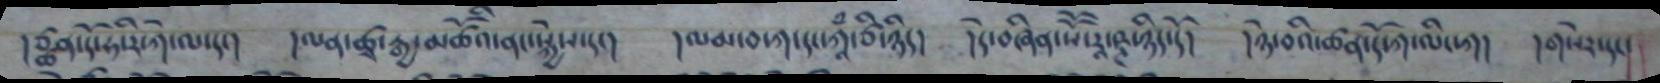།ཙྪན་དོ་ཧ་རི་ཀེ་ལ་དང། །ལན་ཚྭ་རྒྱ་མཚོའི་ནང་སྐྱེས་དང། །ལམ་བ་ཀ་དང་ཀཱཾ་ཙི་ཉིད། །དེ་བཞིན་སཽ་རཱ་ཥྚ་ཉིད་དོ། །ཉེ་བའི་ཚན་དོ་ཀ་ལིང་ཀ། །གསེར་དང་
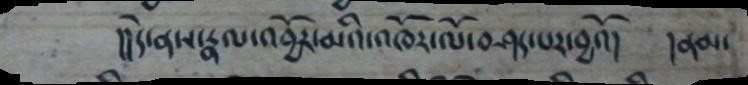།།དེ་ནས་རྣལ་འབྱོར་མའི་འཁོར་ལོ་བཤད་པར་བྱའོ། །ནམ་
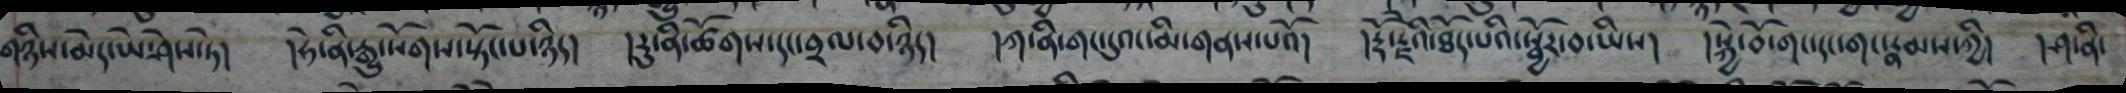གཉིས་མེད་ཡེ་ཤེས་ཏེ། །ཧེ་ནི་རྒྱུ་སོགས་སྟོང་པ་ཉིད། །རུ་ནི་ཚོགས་དང་བྲལ་བ་ཉིད། །ཀ་ནི་གང་དུའང་མི་གནས་པའོ། །རྡོ་རྗེའི་ཐོད་པའི་སྦྱོར་བ་ཡིས། །སྐྱེ་བོ་གང་དང་གང་རྣམས་ཀྱི། །ཤ་ནི་
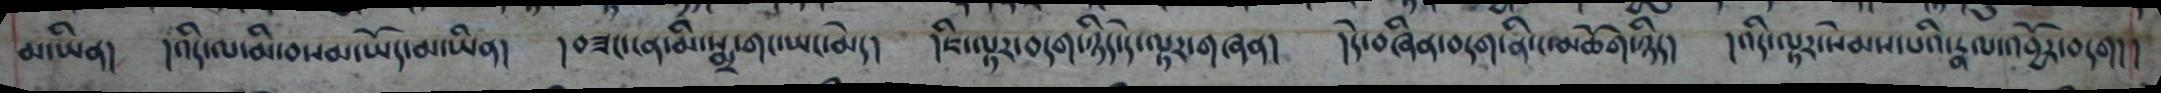མ་ཡིན། །འདི་ལ་མི་བསམ་ཡོད་མ་ཡིན། །བཟང་ངན་མི་སྨྲ་གང་ཡང་མེད། །ཇི་ལྟར་བདག་ཉིད་དེ་ལྟར་གཞན། །དེ་བཞིན་བདག་ནི་ང་མཆོག་ཉིད། །འདི་ལྟར་སེམས་པའི་རྣལ་འབྱོར་བདག། །
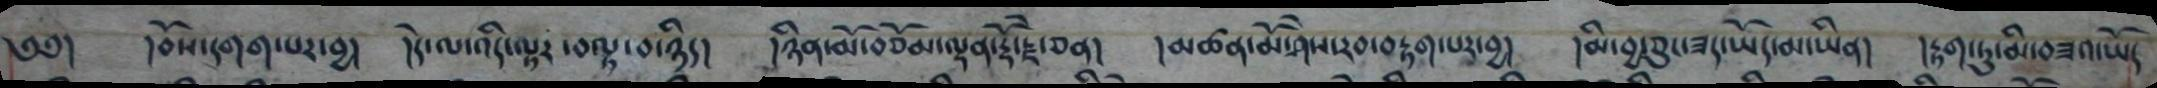༄༅། །བོས་དགག་པར་བྱ། །དེ་ལ་འདི་ལྟར་བལྟ་བ་ཉིད། །ཉིན་མོ་བཅོམ་ལྡན་རྡོ་རྗེ་ཅན། །མཚན་མོ་ཤེས་རབ་བརྟག་པར་བྱ། །མི་བྱ་ཅུང་ཟད་ཡོད་མ་ཡིན། །རྟག་ཏུ་མི་བཟའ་ཡོད
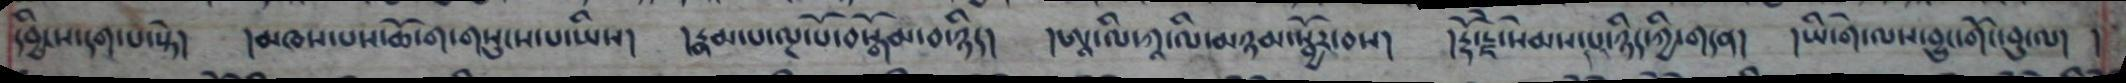དབྱིངས་དག་པ་སྟེ། །མཁས་པས་ཆོ་ག་གསུངས་པ་ཡིས། །རྣམ་པ་ལྔ་པོ་བསྒོམ་བ་ཉིད། །ཨཱ་ལི་ཀཱ་ལི་མཉམ་སྦྱོར་བས། །རྡོ་རྗེ་སེམས་པ་ཉིད་ཀྱི་གདན། །ཡི་གེ་ལས་བྱུང་གོང་བུ་ལ། །
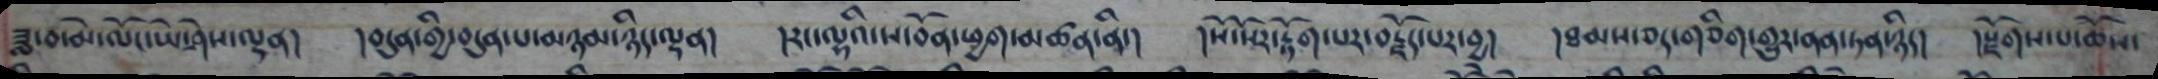ཟླ་བ་མེ་ལོང་ཡེ་ཤེས་ལྡན། །བདུན་གྱི་བདུན་པ་མཉམ་ཉིད་ལྡན། །རང་ལྷའི་ས་བོན་ཕྱག་མཚན་ནི་། །སོ་སོར་རྟོག་པར་བརྗོད་པར་བྱ། །ཐམས་ཅད་གཅིག་གྱུར་ནན་ཏན་ཉིད། །སྫོགས་པ་ཆོས་
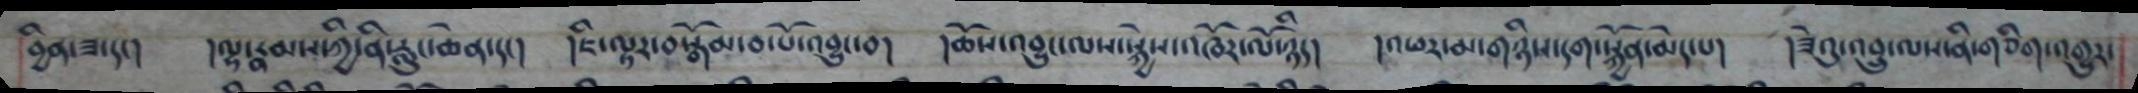བྱིན་ཟ་དང། །ལྷ་རྣམས་ཀྱི་ནི་རླུང་ཆེན་དང། །ཇི་ལྟར་བསྒོམ་བ་པོ་འབྱུང་བ། །ཆོས་འབྱུང་ལས་སྐྱེས་འཁོར་ལོ་ཉིད། །འཕར་མ་གཉིས་དག་སྐྱོན་མེད་པ།།ཟེའུ་འབྲུ་ལས་ནི་གཅིག་འགྱུར་
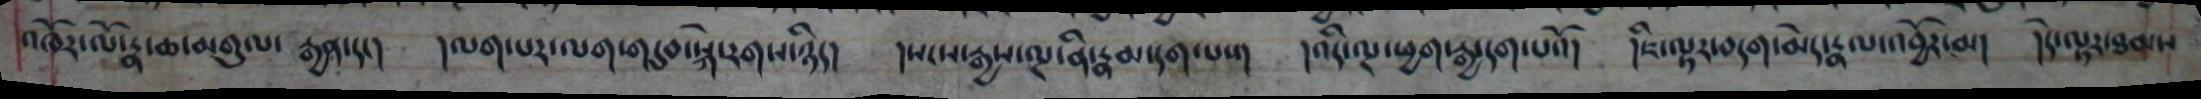འཁོར་ལོ་རྣ་ཆ་མགུལ་ རྒྱན་དང། །ལག་པར་ལག་གདུབ་སྐེ་རགས་ཉིད། །སངས་རྒྱས་ལྔ་ནི་རྣམ་དག་པས། །འདི་ལྔ་ཕྱག་རྒྱ་དག་པའོ། །ཇི་ལྟར་བདག་མེད་རྣལ་འབྱོར་མ། །དེ་ལྟར་ཐམས
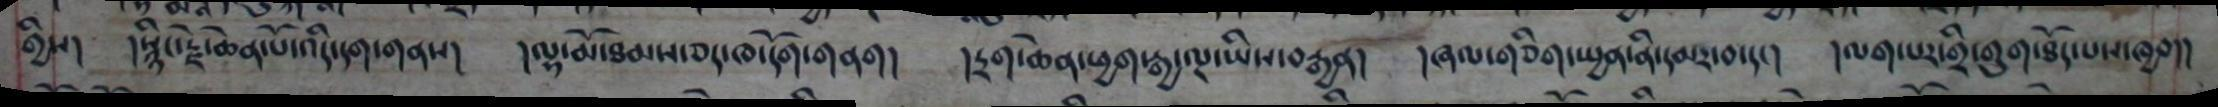གྱིས། །སྙིང་རྗེ་ཆེན་པོ་འདི་དག་གནས། །ལྷ་མོ་ཐམས་ཅད་ཁ་དོག་གནག། །དྲག་ཆེན་ཕྱག་རྒྱ་ལྔ་ཡིས་བརྒྱན། །ཞལ་གཅིག་སྤྱན་ནི་དམར་བ་དང། །ལག་པར་གྲི་གུག་ཐོད་པས་ཁྱབ།།
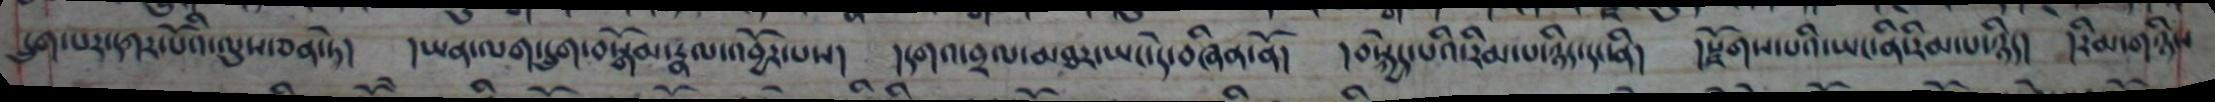དྲུག་པར་དཀར་པོའི་ལུས་ཅན་ཏེ། །ཡན་ལག་དྲུག་བསྒོམ་རྣལ་འབྱོར་པས། །དགའ་བྲལ་མཐར་ཡང་དེ་བཞིན་ནོ།།བསྐྱེད་པའི་རིམ་པ་ཉིད་དང་ནི། །སྫོགས་པའི་ཡང་ནི་རིམ་པ་ཉིད། །རིམ་གཉིས
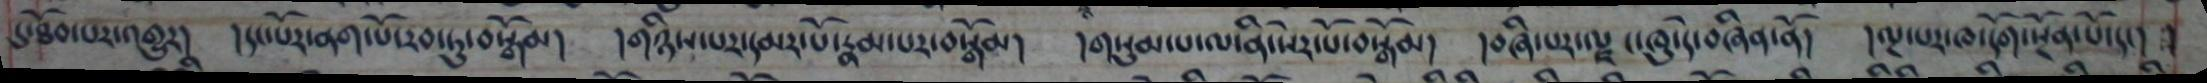དུ་ཐོབ་པར་འགྱུར། །དང་པོར་ནག་པོ་རབ་ཏུ་བསྒོམ། །གཉིས་པར་དམར་པོ་རྣམ་པར་བསྒོམ། །གསུམ་པ་ལ་ནི་སེར་པོ་བསྒོམ། །བཞི་པར་ལྗང་ཁུ་དེ་བཞིན་ནོ། ལྔ་པར་ཁ་དོག་སྔོན་པོ་དང། །
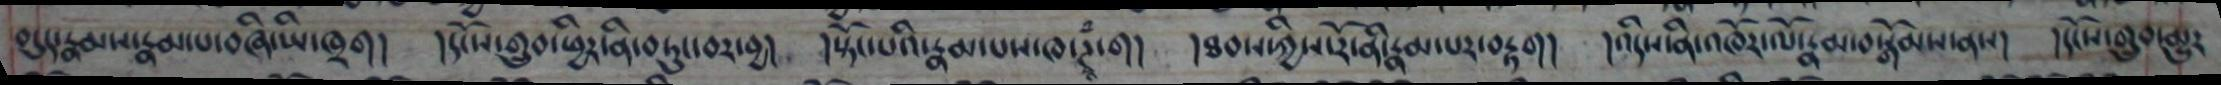བདུད་རྣམས་རྣམ་པ་བཞི་ཡི་ཁྲག། །དངོས་གྲུབ་ཕྱིར་ནི་བཏུལ་བར་བྱ། །སྟོང་པའི་རྣམ་པས་ཁ་ཊྭཱཾ་ག། །ཐབས་ཀྱིས་རོ་ནི་རྣམ་པར་བརྟག། །འདིས་ནི་འཁོར་ལོ་རྣམ་བསྒོམས་ནས། །དངོས་གྲུབ་མྱུར
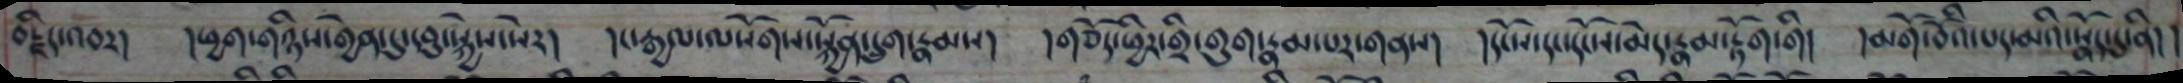བརྗིད་འབར། །ཕྱག་གཉིས་གྱེན་དུ་དབུ་སྐྱེས་སེར། །ང་རྒྱལ་ལསོགས་སྐྱོན་དྲུག་རྣམས། །གཅོད་ཕྱིར་གྲི་གུག་རྣམ་པར་གནས། །དངོས་དང་དངོས་མེད་རྣམ་རྟོག་གི། །མགོ་བོའི་པད་མའི་སྣོད་དུ་ནི། །
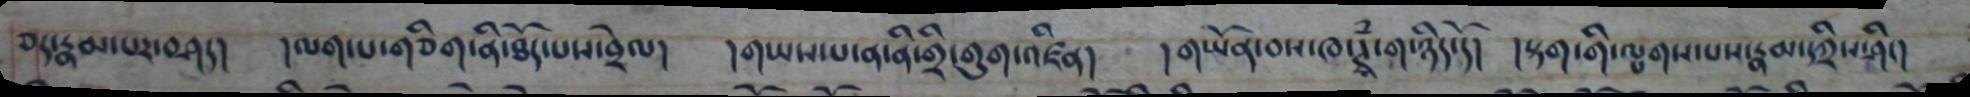ཅད་རྣམ་པར་བཤད། །ལག་པ་གཅིག་ནི་ཐོད་པས་བྲེལ། །གཡས་པ་ན་ནི་གྲི་གུག་འཛིན། །གཡོན་བས་ཁ་ཊྭཱཾ་ག་ཉིད་དོ། །སྟག་གི་ལྤགས་པས་རྣམ་དཀྲིས་ཤིང།
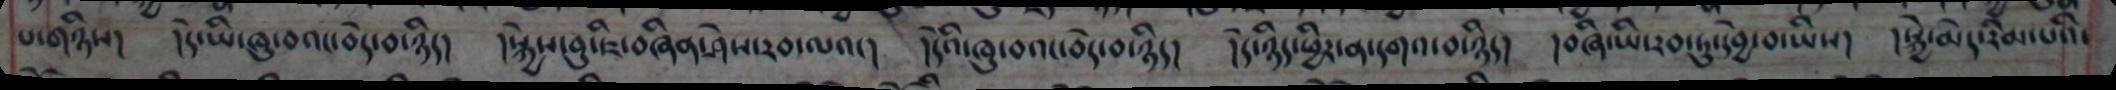པ་གཉིས། །དེ་ཡི་ཁུ་བའང་བདེ་བ་ཉིད། །སྐྱེས་བུ་ཇི་བཞིན་ཤེས་རབ་ལའང། །དེའི་ཁུ་བའང་བདེ་བ་ཉིད། །དེ་ཉིད་ཕྱིར་ན་དགའ་བ་ཉིད། །བཞི་ཡི་རབ་ཏུ་དབྱེ་བ་ཡིས། །སྐྱེ་མེད་རིམ་པའི་
